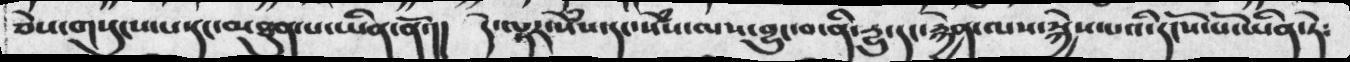ཅེས་གསུངས་པ་དང་མཐུན་པ་ཡིན་ནོ་།།   དེ་ལྟར་སེཾས་དང་སེྃས་ལས་བྱུང་བ་ནི་དྱུ་དང་རྐྱེན་ལས་སྐྱེས་པའི་དངོས་པོ་ཡིན་ཏེ༴
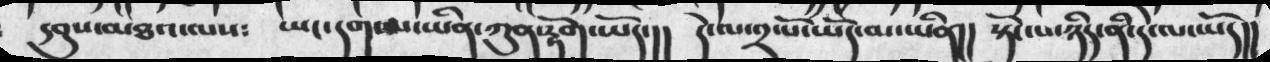དབུ་མཐའ་ལས༴   ཡང་དག་མ་ཡིན་ཀུན་རྟོག་ཡོད་།།   དེ་ལ་༢་པོ་ཡོད་མ་ཡིན།།   སྟོང་པ་ཉིད་ནི་དེ་ལ་ཡོད།།
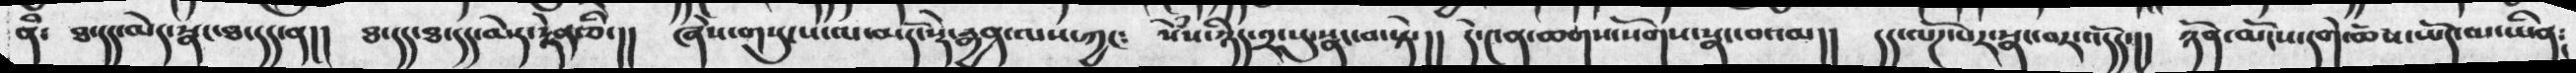ནི་    ཐ་དད་མེད་སྣང་ཐ་དད་ན།།   ཐ་དད་ཐ་དད་མེད་རྟེན་ཅིང།།  ཞེས་གསུངས་ལ་མདོ་སྡེ་རྒྱན་ལས་ཀྱང༴  སེཾས་ཉིད་༢་སུ་སྣང་བ་སྟེ་།།   དེ་༤ན་ཆགས་སོགས་སྣང་བའམ།།   དད་ལོཌ་པར་སྣང་བར་འདོད་།།  ཉོན་མོངས་དགེ་ཆོས་ཡོད་མ་ཡིན༴
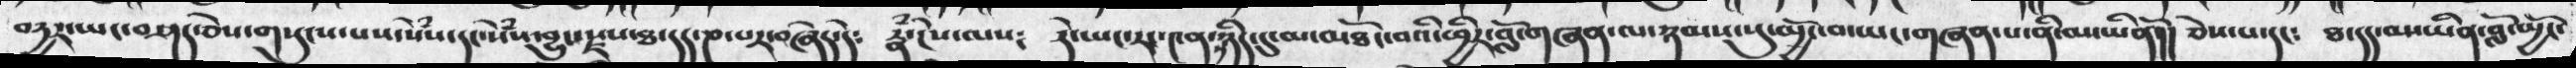བདྱར་ཡང་བཤད་ཅེས་གསུངས་པས་སེཾས་དང་སེཾས་བྱུང་སྫས་ཐ་དད་ཎ་པར་བཞེད་དེ༴   རྣཾ་ངེས་ལས༴   དེ་ཡང་རང་༤ན་ཉིད་དུ་མ་མཐོང་བའི་ཕྱིར་བློ་གཞན་ལ་ཉམས་སུ་མྱོང་བ་ཡང་གཞན་པ་ནི་མ་ཡིནོ།།   ཅེས་པ་དང༴   ཐ་དད་མ་ཡིན་བློ་མྱོང་
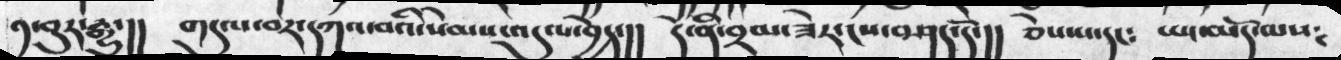༡བུར་རྒྱུ་།།   གདུལ་བར་དཀའ་བའི་སེམས་འདུལ་བྱེད་།།   དེ་ནི་བྲམ་ཟེར་ངས་བཤད་དོ་།།   ཅེས་པ་དང༴   ཡང་མདོ་ལས༴
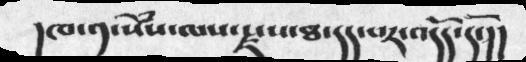།ཁ་༡་སེཾས་ལས་སྫས་ཐ་དད་པར་འདོད་དོ་།།
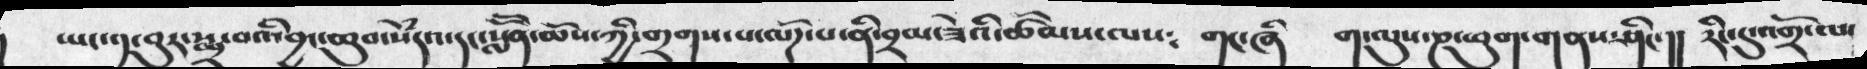ཡང་༡་བུར་སྨྲ་བའི་བྱང་ཆུབ་སེྃདའ་དང་སློོན་ཆོས་ཀྱི་གྲགས་པ་ལོཌ་པ་ནི་བྲམ་ཟེའི་ཚོམས་ལས༴   གང་ཞི   ག་ལུས་ཎ་ཕུག་གནས་ཤིང་།།   རིང་དུ་འགྲོ་ལ་
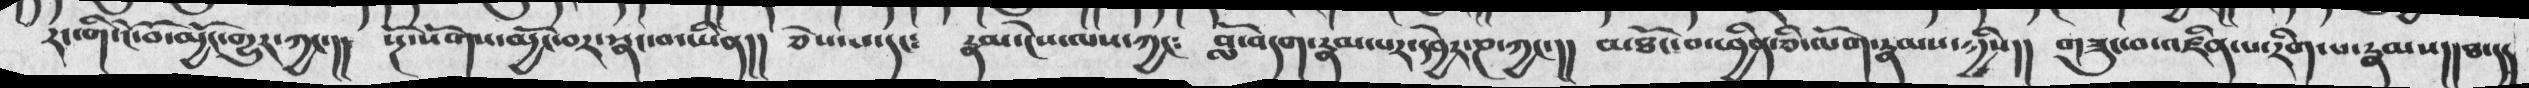རང་གི་ངོ་བོ་མྱོང་གྱུར་ཀྱང་།།   སྔོ་སོགས་མྱོང་བར་སྣང་བ་ཡིན།།   ཅེས་པ་དང༴   རྣམ་ངེས་ལས་ཀྱང༴  བློ་བདག་རྣམ་པར་དབྱེར་ཎ་ཀྱང་།།  མཐོང་བ་ཕྱིན་ཅི་ལོག་རྣམས་ཀྱིས།།    གཟུང་བ་འཛིན་པ་རིིག་པ་རྣམས།།   ཐ་དད
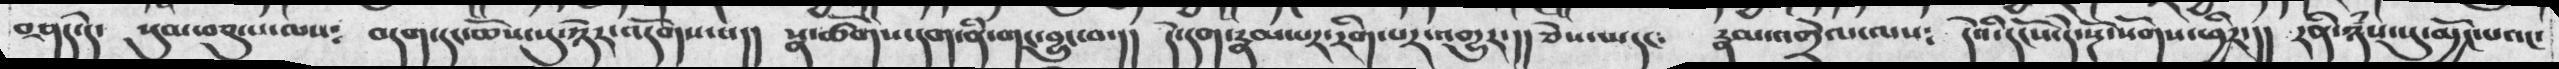བཤད་དེ་   སུམ་བཅུ་པ་ལས༴   བདག་དང་ཆོསསུ་ཉེར་འདོགས་པ།།   སྣ་ཚོགས་དག་ནི་གང་བྱུང་བ་།།  དེ་དག་རྣམ་པར་རིག་པར་འགྱུར་།།   ཅེས་པ་དང༴   རྣམ་འགྲེལ་ལས༴   དེའི་དངོས་དེ་སྔོ་སོགས་ཕྱིར་།།  དྲིན་ཉཾས་སུ་མྱོང་པའང་
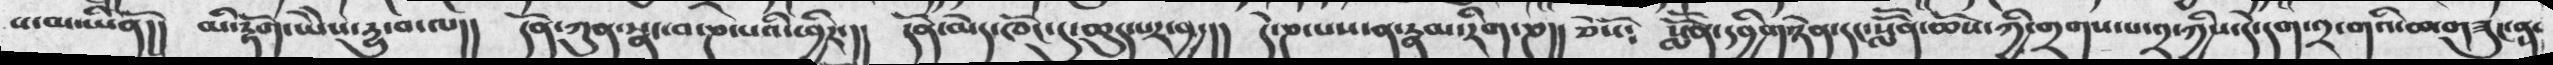པ་མ་ཡིནོ།།   མི་རྟོག་ཡེེས་དྱུ་བ་ལ།།  དོན་ཀུན་སྣང་བ་ཎ་པའི་ཕྱིར་།།  དོན་མེད་ཁོང་དུ་ཆུད་པར་བྱ་།།   དེ་ཎ་པས་ན་རྣམ་རིག་ཎ།།   ཅེསོ༴  སློོན་དབྱིགཉེན་དང་སློོན་ཆོས་ཀྱི་གྲགས་པ་༢་ཀྱིས་དེ་དག་༢་གའི་ཆ་གཟུང་ན་
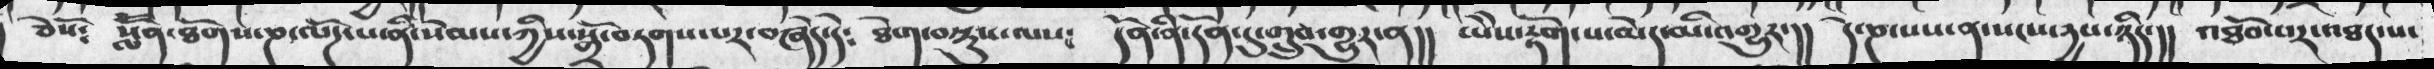ཅེསོ༴   སློོན་ཐོགས་ཎ་ལོཌ་པ་ནི་སེམས་ཀྱིས་སྒྲོ་བདགས་པར་བཞེད་དེ༴   ཐེག་བསྡུས་ལས༴   དོན་ནི་དོན་དུ་གྲུབ་གྱུར་ན།།  ཡེེས་རྟོག་པ་མེད་མི་འགྱུར་།།   དེ་ཎ་པས་ན་སངས་དྱས་ཉིད་།།   འཐོབ་པར་འཐད་པ་
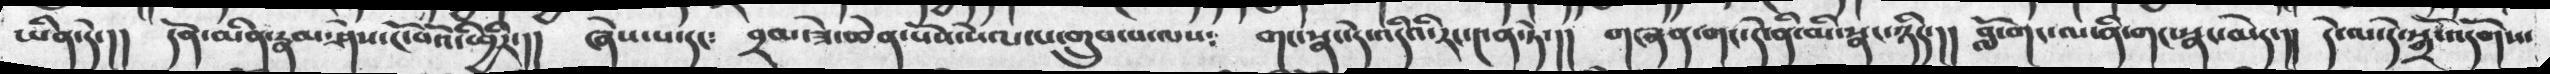ཡིན་དེ་།།  དོན་མིན་རྣམ་ཤེས་ངོ་བོའི་ཕྱིར་།།  ཞེས་པ་དང༴   བྲམ་ཟེ་ཆེན་པོས་སེལ་པ་གྲུབ་པ་ལས༴༴   གང་སྣང་དེ་འདིའི་རང་༤ན་ཏེ་།།   གཞན་གང་དེ་ནི་མི་སྣང་ཉིད་།།    བློ་གང་ལ་ནི་གང་སྣང་མེད་།།  དེ་ལ་དེ་སྒྲོ་འདོགས་
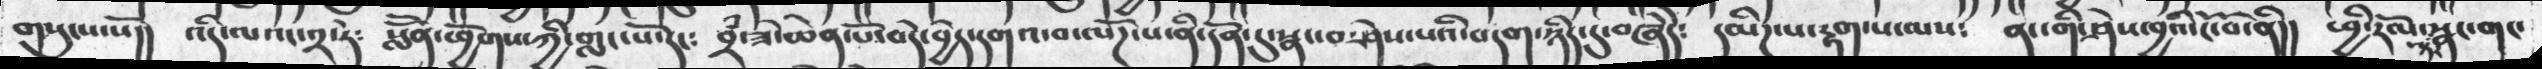གསུངས་སོ།།  འདི་ལའང་༢་ཏེ༴  སློན་ཕྱོགས་ཀྱི་གླང་པོ་རང༴  བྲཾ་ཟེ་ཆེན་པོ་བདེ་བྱེད་དགའ་བ་ལོཌ་པ་ནི་དོན་དུ་སྣང་བ་ཤེས་པའི་བདག་ཉིད་དུ་བཞེདེ༴   དམིཌ་པ་རྟག་པ་ལས༴  ནང་གི་ཤེས་བྱའི་ངོ་བོ་ནི།།   ཕྱི་རོལ་ཀྱི་སྣང་གང་
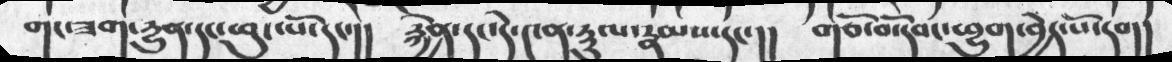གང་ཟག་དྱུན་དང་ཕུང་པོ་དང་།།    རྐྱེན་དང་དེ་༤ན་རྡུལ་རྣམས་དང་།།   གཅོ་བོ་དབང་ཕྱུག་བྱེད་པོ་དག།
